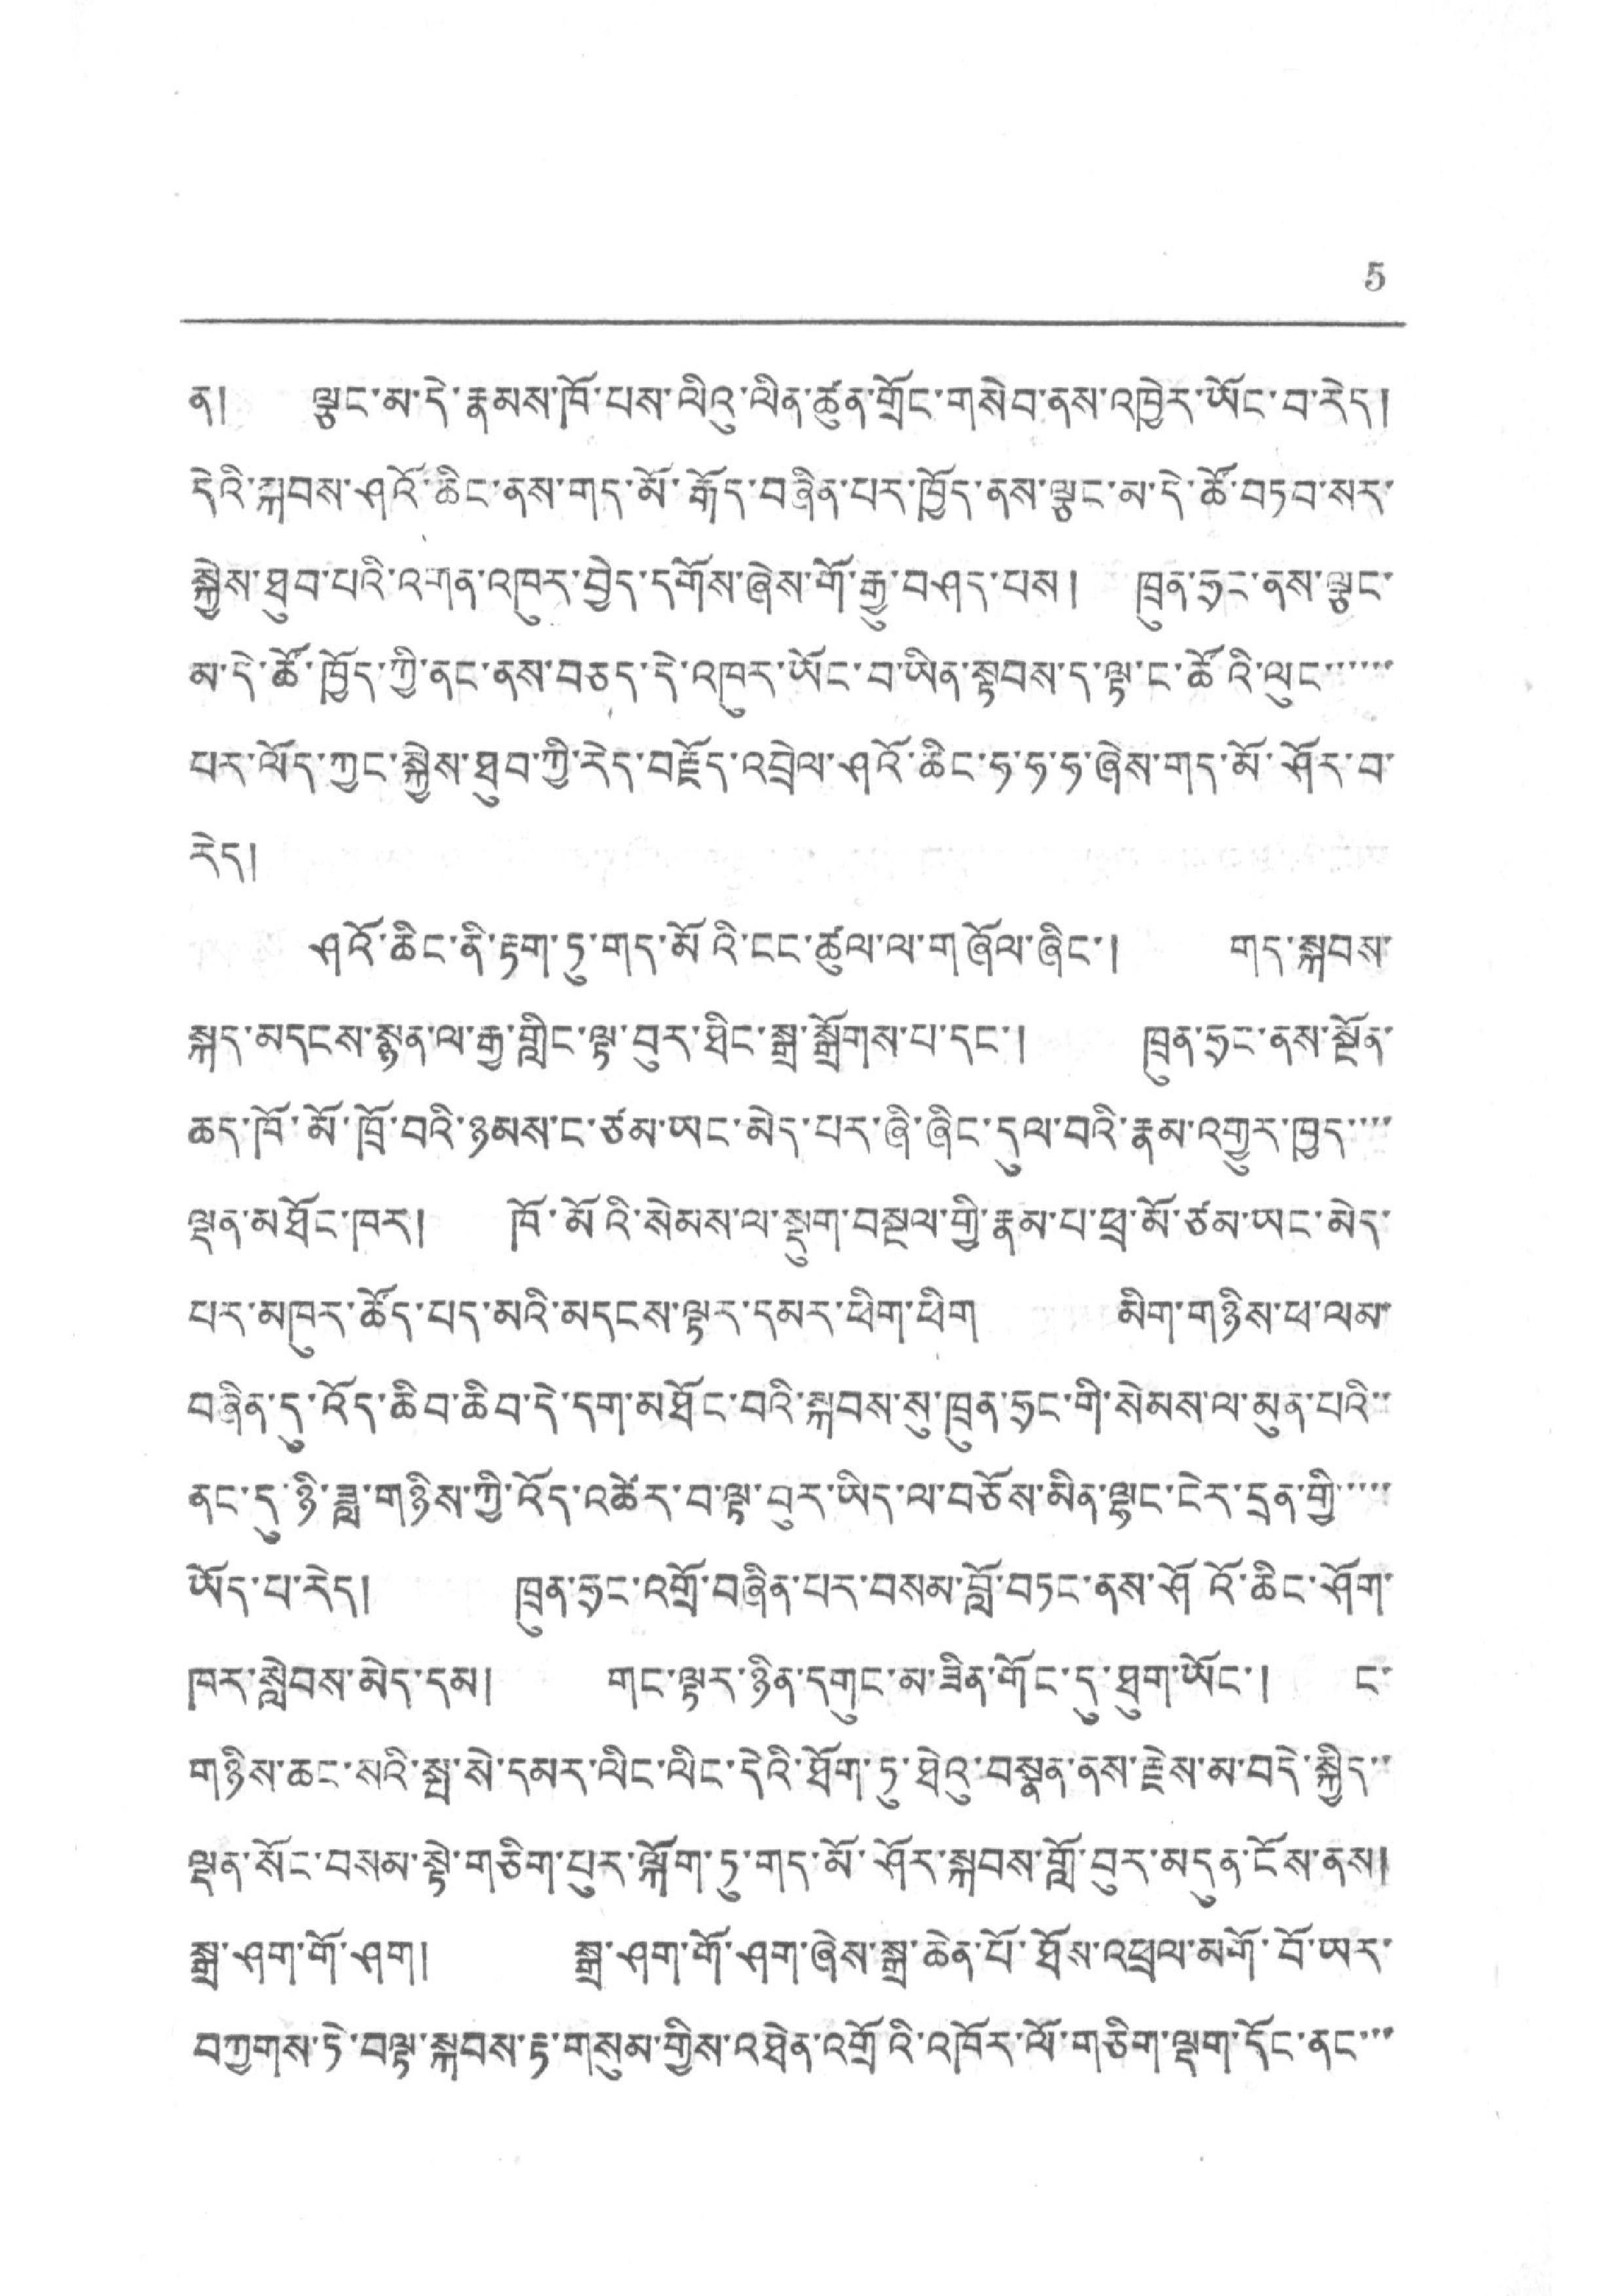5
ན། ལྕང་མ་དེ་རྣམས་ཁོ་པས་ལིའུ་ལིན་ཚུན་གྲོང་གསེབ་ནས་འཁྱེར་ཡོང་བ་རེད།
དེའི་སྐབས་ཤའོ་ཆིང་ནས་གད་མོ་རྒོད་བཞིན་པར་ཁྱོད་ནས་ལྕང་མ་དེ་ཚོ་བཏབ་སར་
སྐྱེས་ཐུབ་པའི་འགན་འཁུར་བྱེད་དགོས་ཞེས་གོ་རྒྱུ་བཤད་པས། ཁྲུན་ཧྲང་ནས་ལྕང་
མ་དེ་ཚོ་ཁྱོད་ཀྱི་ནང་ནས་བཅད་དེ་འཁུར་ཡོང་བ་ཡིན་སྟབས་ད་ལྟ་ང་ཚོའི་ལུང་་་་་་
པར་ལོད་ཀྱང་སྐྱེས་ཐུབ་ཀྱི་རེད་བརྗོད་འབྲེལ་ཤའོ་ཆིང་ཧ་ཧ་ཧ་ཞེས་གད་མོ་ཤོར་བ་
རེད།
ཤའོ་ཆིང་ནི་རྟག་ཏུ་གད་མོའི་ངང་ཚུལ་ལ་གཞོལ་ཞིང་། གད་སྐབས་
སྐད་མདངས་སྙན་ལ་རྒྱ་གླིང་ལྟ་བུར་ཐིང་སྒྲ་སྒྲོགས་པ་དང་། ཁྲུན་ཧྲང་ནས་སྔོན་
ཆད་ཁོ་མོ་ཁྲོ་བའི་ཉམས་ང་ཙམ་ཡང་མེད་པར་ཞི་ཞིང་དུལ་བའི་རྣམ་འགྱུར་ཁྱད་་་་
ལྡན་མཐོང་ཁར། ཁོ་མོའི་སེམས་ལས་སྡུག་བསྔལ་གྱི་རྣམ་པ་ཕྲ་མོ་ཙམ་ཡང་མེད་
པར་མཁུར་ཚོད་པད་མའི་མདངས་ལྟར་དམར་ཕིག་ཕིག མིག་གཉིས་ཕ་ལམ་
བཞིན་དུ་འོད་ཆིབ་ཆིབ་དེ་དག་མཐོང་བའི་སྐབས་སུ་ཁྲུན་ཧྲང་གི་སེམས་ལ་མུན་པའི་་
ནང་དུ་ཉི་ཟླ་གཉིས་ཀྱི་འོད་འཚེར་བ་ལྟ་བུར་ཡིད་ལ་བཅོས་མིན་ལྷང་ངེར་དྲན་གྱི་་་་་
ཡོད་པ་རེད། ཁྲུན་ཧང་འགྲོ་བཞིན་པར་བསམ་བློ་བཏང་ནས་ཤོའོ་ཆིང་ཤོག་
ཁར་སླེབས་མེད་དམ། གུང་ལྟར་ཉིན་དགུང་མ་ཟིན་གོང་དུ་ཐུག་ཡོང་། ང་
གཉིས་ཆང་སའི་སྤ་སེ་དམར་ལིང་ལིང་དེའི་ཐོག་ཏུ་ཐེའུ་བསྣན་ནས་རྗེས་མ་བདེ་སྐྱེད་་
ལྡན་སོང་བསམ་སྟེ་གཅིག་པུར་ལྐོག་ཏུ་གད་མོ་ཤོར་སྐབས་གློ་བུར་མདུན་ངོས་ནས།
སྒྲ་ཤག་གོ་ཤག། སྒྲ་ཤག་གོ་ཤག་ཞེས་སྒྲ་ཆེན་པོ་ཐོས་འཕྲལ་མགོ་བོ་ཡར་
བཀྱགས་ཏེ་བལྟ་སྐབས་རྟ་གསུམ་གྱིས་འཐེན་འགྲོའི་འཁོར་ལོ་གཅིག་ལྟག་དོང་ནང་་་
